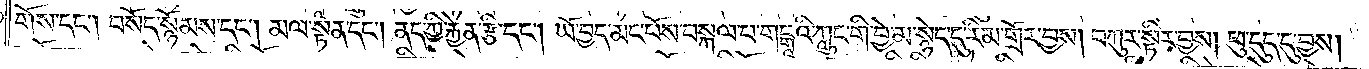གོས་དང༌། བསོད་སྙོམས་དང༌། མལ་སྟན་དང༌། ནད་ཀྱི་རྐྱེན་རྩི་དང༌། ཡོ་བྱད་མང་པོས་བསྐལ་པ་གངྒའི་ཀླུང་གི་བྱེ་མ་སྙེད་དུ་རིམ་གྲོར་བྱས། བཀུར་སྟིར་བྱས། ཕུ་དུད་དུ་བྱས།
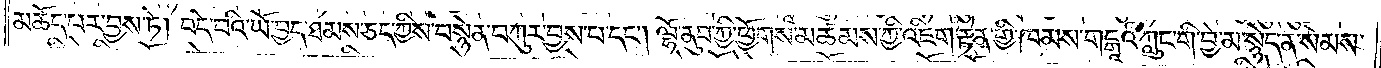མཆོད་པར་བྱས་ཏེ། བདེ་པའི་ཡོ་བྱད་ཐམས་ཅད་ཀྱིས་བསྙེན་བཀུར་བྱས་པ་དང༌། ལྷོ་ནུབ་ཀྱི་ཕྱོགས་མཚམས་ཀྱི་འཇིག་རྟེན་གྱི་ཁམས་གངྒའི་ཀླུང་གི་བྱེ་མ་སྙེད་ན་སེམས་
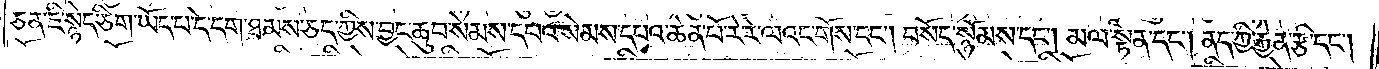ཅན་ཇི་སྙེད་ཅིག་ཡོད་པ་དེ་དག་ཐམས་ཅད་ཀྱིས་བྱང་ཆུབ་སེམས་དཔའ་སེམས་དཔའ་ཆེན་པོ་རེ་རེ་ལའང་གོས་དང༌། བསོད་སྙོམས་དང༌། མལ་སྟན་དང༌། ནད་ཀྱི་རྐྱེན་རྩི་དང༌།
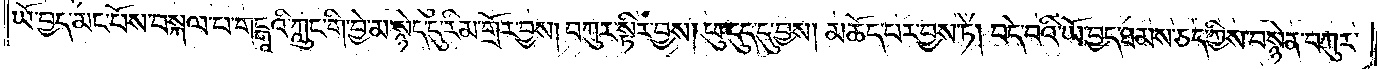ཡོ་བྱད་མང་པོས་བསྐལ་པ་གངྒའི་ཀླུང་གི་བྱེ་མ་སྙེད་དུ་རིམ་གྲོར་བྱས། བཀུར་སྟིར་བྱས། ཕུ་དུད་དུ་བྱས། མཆོད་པར་བྱས་ཏེ། བདེ་བའི་ཡོ་བྱད་ཐམས་ཅད་ཀྱིས་བསྙེན་བཀུར་
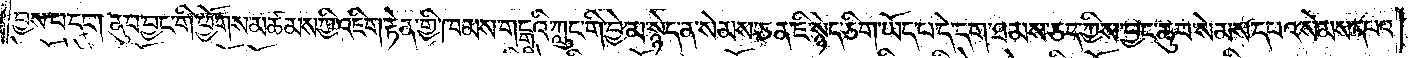བྱས་པ་དང༌། ནུབ་བྱང་གི་ཕྱོགས་མཚམས་ཀྱི་འཇིག་རྟེན་གྱི་ཁམས་གངྒའི་ཀླུང་གི་བྱེ་མ་སྙེད་ན་སེམས་ཅན་ཇི་སྙེད་ཅིག་ཡོད་པ་དེ་དག་ཐམས་ཅད་ཀྱིས་བྱང་ཆུབ་སེམས་དཔའ་སེམས་དཔའ་
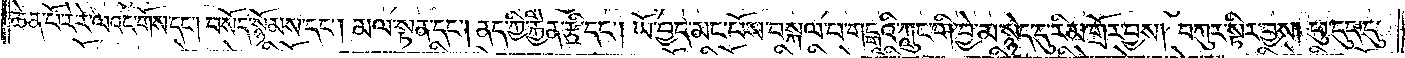ཆེན་པོ་རེ་རེ་ལའང་གོས་དང༌། བསོད་སྙོམས་དང༌། མལ་སྟན་དང༌། ནད་ཀྱི་རྐྱེན་རྩི་དང༌། ཡོ་བྱད་མང་པོས་བསྐལ་པ་གངྒའི་ཀླུང་གི་བྱེ་མ་སྙེད་དུ་རིམ་གྲོར་བྱས། བཀུར་སྟིར་བྱས། ཕུ་དུད་དུ་
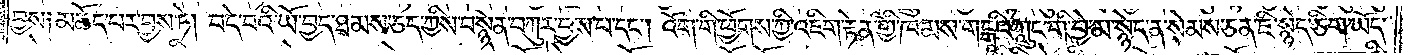བྱས༑ མཆོད་པར་བྱས་ཏེ། བདེ་བའི་ཡོ་བྱད་ཐམས་ཅད་ཀྱིས་བསྙེན་བཀུར་བྱས་པ་དང༌། འོག་གི་ཕྱོགས་ཀྱི་འཇིག་རྟེན་གྱི་ཁམས་གངྒའི་ཀླུང་གི་བྱེ་མ་སྙེད་ན་སེམས་ཅན་ཇི་སྙེད་ཅིག་ཡོད་
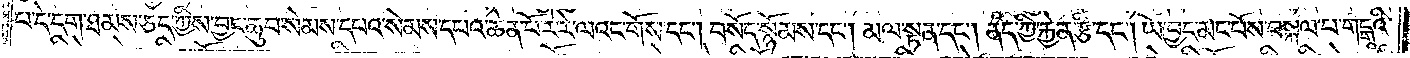པ་དེ་དག་ཐམས་ཅད་ཀྱིས་བྱང་ཆུབ་སེམས་དཔའ་སེམས་དཔའ་ཆེན་པོ་རེ་རེ་ལའང་གོས་དང༌། བསོད་སྙོམས་དང༌། མལ་སྟན་དང༌། ནད་ཀྱི་རྐྱེན་རྩི་དང༌། ཡོ་བྱད་མང་པོས་བསྐལ་པ་གངྒའི་
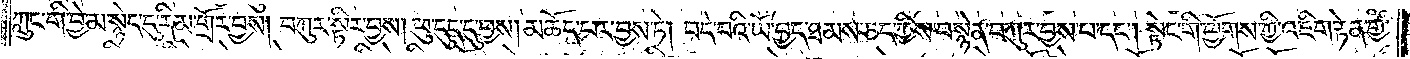ཀླུང་གི་བྱེ་མ་སྙེད་དུ་རིམ་གྲོར་བྱས། བཀུར་སྟིར་བྱས། ཕུ་དུད་དུ་བྱས། མཆོད་པར་བྱས་ཏེ། བདེ་བའི་ཡོ་བྱད་ཐམས་ཅད་ཀྱིས་བསྙེན་བཀུར་བྱས་པ་དང༌། སྟེང་གི་ཕྱོགས་ཀྱི་འཇིག་རྟེན་གྱི་
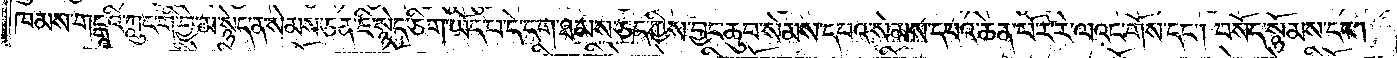ཁམས་གངྒའི་ཀླུང་གི་བྱེ་མ་སྙེད་ན་སེམས་ཅན་ཇི་སྙེད་ཅིག་ཡོད་པ་དེ་དག་ཐམས་ཅད་ཀྱིས་བྱང་ཆུབ་སེམས་དཔའ་སེམས་དཔའ་ཆེན་པོ་རེ་རེ་ལའང་གོས་དང༌། བསོད་སྙོམས་དང༌།
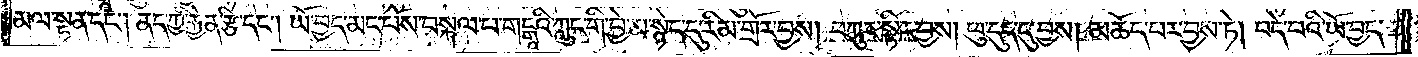མལ་སྟན་དང༌། ནད་ཀྱི་རྐྱེན་རྩི་དང༌། ཡོ་བྱད་མང་པོས་བསྐལ་པ་གངྒའི་ཀླུང་གི་བྱེ་མ་སྙེད་དུ་རིམ་གྲོར་བྱས། བཀུར་སྟིར་བྱས། ཕུ་དུད་དུ་བྱས། མཆོད་པར་བྱས་ཏེ། བདེ་བའི་ཡོ་བྱད་
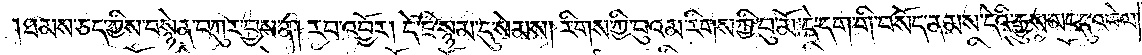ཐམས་ཅད་ཀྱིས་བསྙེན་བཀུར་བྱས་ན། རབ་འབྱོར། དེ་ཇི་སྙམ་དུ་སེམས། རིགས་ཀྱི་བུའམ་རིགས་ཀྱི་བུ་མོ་དེ་དག་གི་བསོད་ནམས་དེའི་རྒྱུས་མང་དུ་འཕེལ་
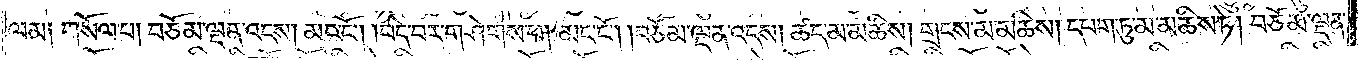ལམ༑ གསོལ་པ། བཅོམ་ལྡན་འདས། མང་ངོ༌། །བདེ་བར་གཤེགས་པ། མང་ངོ༌། །བཅོམ་ལྡན་འདས། ཚད་མ་མཆིས། གྲངས་མ་མཆིས། དཔག་ཏུ་མ་མཆིས་ཏེ། བཅོམ་ལྡན་
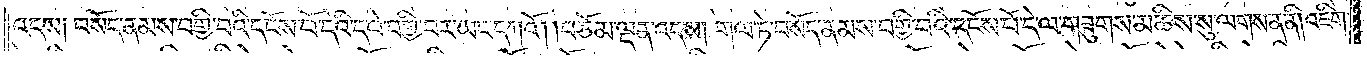འདས༑ བསོད་ནམས་བགྱི་བའི་དངོས་པོ་དེའི་དཔེ་བགྱི་བར་ཡང་དཀའོ། །བཅོམ་ལྡན་འདས། གལ་ཏེ་བསོད་ནམས་བགྱི་བའི་དངོས་པོ་དེ་ལ་གཟུགས་མཆིས་སུ་ལགས་ན་ནི། འཇིག་
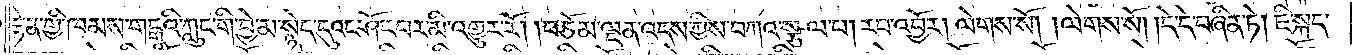རྟེན་གྱི་ཁམས་གངྒའི་ཀླུང་གི་བྱེ་མ་སྙེད་དུའང་ཤོང་པར་མི་འགྱུར་རོ། །བཅོམ་ལྡན་འདས་ཀྱིས་བཀའ་སྩལ་པ། རབ་འབྱོར། ལེགས་སོ། ལེགས་སོ། །དེ་དེ་བཞིན་ཏེ། ཇི་སྐད་
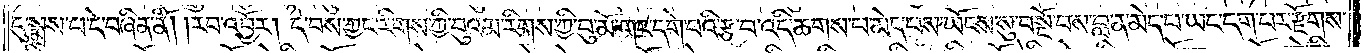དུ་སྨྲས་པ་དེ་བཞིན་ནོ། །རབ་འབྱོར། དེ་བས་ཀྱང་རིགས་ཀྱི་བུའམ་རིགས་ཀྱི་བུ་མོ་གང་དགེ་བའི་རྩ་བ་འདི་ཆགས་པ་མེད་པའི་ཡོངས་སུ་བསྔོ་བས་བླ་ན་མེད་པ་ཡང་དག་པར་རྫོགས་
